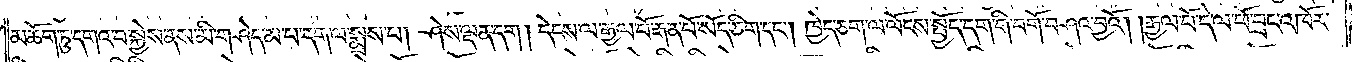མཆོག་ཏུ་དགའ་བ་སྐྱེས་ནས་མི་གཤེད་མ་པ་དག་ལ་སྨྲས་པ། ཤེས་ལྡན་དག །དེངས་ལ་རྒྱལ་པོ་རྒན་པོ་སོད་ཅིག་དང༌། ཁྱེད་ཅག་ལ་ལོངས་སྤྱོད་དག་གི་བགོ་བཤའ་བྱའོ། །རྒྱལ་པོ་དེ་ལ་ཕོ་བྲང་འཁོར་
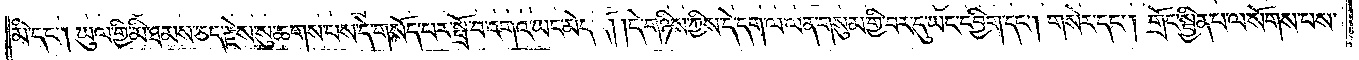མི་དང༌། ཡུལ་གྱི་མི་ཐམས་ཅད་རྗེས་སུ་ཆགས་པས་དེ་གསོད་པར་སྤྲོ་བ་འགའ་ཡང་མེད་དོ། །དེ་གཉིས་ཀྱིས་དེ་དག་ལ་ལན་གསུམ་གྱི་བར་དུ་ཡང་དབྱིག་དང༌། གསེར་དང༌། གྲོང་སྦྱིན་པ་ལ་སོགས་པས་
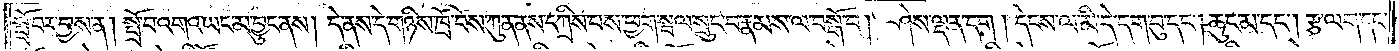སྤྲོ་བར་བྱས་ན། སྤྲོ་བ་འགའ་ཡང་མ་བྱུང་ནས། དེ་ནས་དེ་གཉིས་ཁྲོ་བོས་ཀུན་ནས་དཀྲིས་པས་ཕྱག་སྦལ་སྲུང་ང་རྣམས་ལ་བསྒོ་བ། ཤེས་ལྡན་དག །དེངས་ལ་མི་དེ་དག་བུ་དང༌། ཆུང་མ་དང༌། རྩ་ལག་དང་
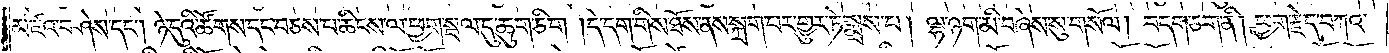མཛའ་བཤེས་དང༌། ཉེ་དུའི་ཚོགས་དང་བཅས་པ་ཆིངས་ལ་ཕྱག་སྦལ་དུ་ཆུག་ཅིག །དེ་དག་གིས་ཐོས་ནས་སྐྲག་པར་གྱུར་ཏེ་སྨྲས་པ། ལྷ་ཉག་མི་བཞེས་སུ་གསོལ། བདག་ཅག་ནི། ཕྱག་རྗེད་བཀའ་
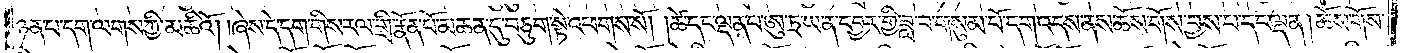ཉན་པ་དག་ལགས་ཀྱི་མཆིའོ། །ཞེས་དེ་དག་གིས་རལ་གྲི་རྣོན་པོ་མཆན་དུ་བཅུག་སྟེ་འཕགས་སོ། །ཚེ་དང་ལྡན་པ་ཨུ་ཏྲ་ཡ་ན་དབྱར་གྱི་ཟླ་བ་གསུམ་པོ་དག་འདས་ནས་ཆོས་གོས་བྱས་པ་དང་ལྡན། ཆོས་གོས་
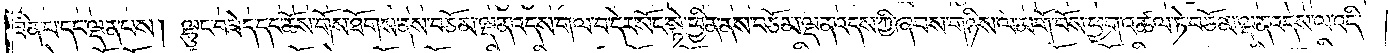ཟིན་པ་དང་ལྡན་པས། ལྷུང་བཟེད་དང་ཆོས་གོས་ཐོགས་ནས་བཅོམ་ལྡན་འདས་ག་ལ་བ་དེར་སོང་སྟེ་ཕྱིན་ནས་བཅོམ་ལྡན་འདས་ཀྱི་ཞབས་གཉིས་ལ་མགོ་བོས་ཕྱག་འཚལ་ཏེ་བཅོམ་ལྡན་འདས་ལ་འདི་
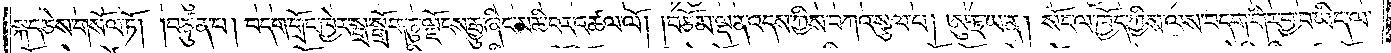སྐད་ཅེས་གསོལ་ཏོ། །བཙུན་པ། བདག་གྲོང་ཁྱེར་སྒྲ་སྒྲོག་ཏུ་ལྗོངས་རྒྱུ་ཞིང་མཆི་བར་འཚལ་ལོ། །བཅོམ་ལྡན་འདས་ཀྱིས་བཀའ་སྩལ་པ། ཨུ་ཏྲ་ཡ་ན། སོང་ལ་ཁྱོད་ཀྱིས་ལས་བདག་གིར་བྱ་བ་ཡིད་ལ་
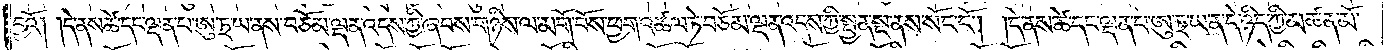བྱའོ། །དེ་ནས་ཚེ་དང་ལྡན་པ་ཨུ་ཏྲ་ཡ་ནས་བཅོམ་ལྡན་འདས་ཀྱི་ཞབས་གཉིས་ལ་མགོ་བོས་ཕྱག་འཚལ་ཏེ་བཅོམ་ལྡན་འདས་ཀྱི་སྤྱན་སྔ་ནས་སོང་ངོ༌། །དེ་ནས་ཚེ་དང་ལྡན་པ་ཨུ་ཏྲ་ཡ་ན་དེ་ཉིད་ཀྱི་མཚན་མོ་
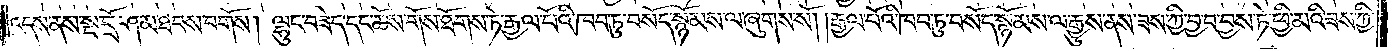འདས་ནས་སྔ་དྲོ་ཤམ་ཐབས་བགོས། ལྷུང་བཟེད་དང་ཆོས་གོས་ཐོགས་ཏེ་རྒྱལ་པོའི་ཁབ་ཏུ་བསོད་སྙོམས་ལ་ཞུགས་སོ། །རྒྱལ་པོའི་ཁབ་ཏུ་བསོད་སྙོམས་ལ་རྒྱུས་ནས་ཟས་ཀྱི་བྱ་བ་བྱས་ཏེ་ཕྱི་མའི་ཟས་ཀྱི་
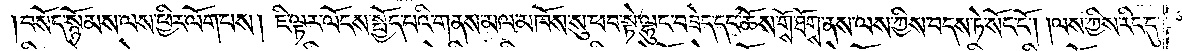།བསོད་སྙོམས་ལས་ཕྱིར་ལོག་པས། ཇི་ལྟར་ལོངས་སྤྱོད་པའི་གནས་མལ་མཁོས་སུ་ཕབ་སྟེ་ལྷུང་བཟེད་དང་ཆོས་གོས་ཐོགས་ནས་ལས་ཀྱིས་བདས་ཏེ་སོང་ངོ༌། །ལས་ཀྱིས་རིང་དུ་
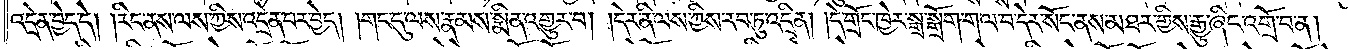འདྲེན་བྱེད་དེ། །རིང་ནས་ལས་ཀྱིས་འདྲེན་པར་བྱེད། །གང་དུ་ལས་རྣམས་སྨིན་འགྱུར་བ། །དེར་ནི་ལས་ཀྱིས་རབ་ཏུ་འདྲིན། །དེ་གྲོང་ཁྱེར་སྒྲ་སྒྲོག་ག་ལ་བ་དེར་སོང་ནས་མཐར་གྱིས་རྒྱུ་ཞིང་འགྲོ་བ་ན།
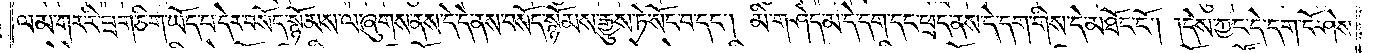ལམ་གར་རི་བྲག་ཅིག་ཡོད་པ་དེར་བསོད་སྙོམས་ལ་ཞུགས་ནས་དེ་དེ་ནས་བསོད་སྙོམས་རྒྱུས་ཏེ་སོང་བ་དང༌། མི་གཤེད་མ་དེ་དག་དང་ཕྲད་ནས་དེ་དག་གིས་དེ་མཐོང་ངོ༌། །དེས་ཀྱང་དེ་དག་ངོ་ཤེས་
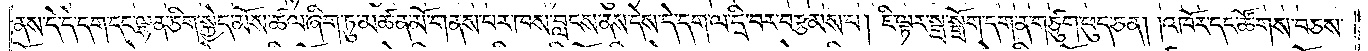ནས་དེ་དེ་དག་དང་ལྷན་ཅིག་སྐྱེད་མོས་ཚལ་ཞིག་ཏུ་མཚན་མོ་གནས་པར་ཁས་བླངས་ནས་དེས་དེ་དག་ལ་དྲི་བར་བརྩམས་པ། ཇི་ལྟར་སྒྲ་སྒྲོག་དག་ན་གཙུག་ཕུད་ཅན། །འཁོར་དང་ཚོགས་བཅས་
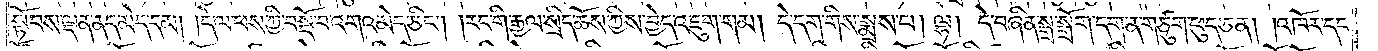སྟོབས་ལྡན་ནད་མེད་དམ། །དེ་ལ་ཕས་ཀྱི་བསྡོ་བ་འགའ་མེད་ཅིང༌། །རང་གི་རྒྱལ་སྲིད་ཆོས་ཀྱིས་བྱེད་འཇུག་གམ། དེ་དག་གིས་སྨྲས་པ། ལྷ། དེ་བཞིན་སྒྲ་སྒྲོག་དག་ན་གཙུག་ཕུད་ཅན། །འཁོར་དང་
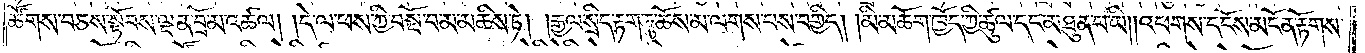ཚོགས་བཅས་སྟོབས་ལྡན་བྲོ་མ་འཚལ། །དེ་ལ་ཕས་ཀྱི་བསྔོ་བ་མ་མཆིས་ཏེ། །རྒྱལ་སྲིད་རྟག་ཏུ་ཆོས་མ་ལགས་པས་བགྱིད། །མི་མཆོད་ཁྱོད་ཀྱི་ཚུལ་དང་མཐུན་པ་ཡི། །འཕགས་དངོས་མངོན་རྟོགས་
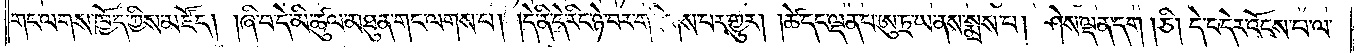གང་ལགས་ཁྱོད་ཀྱིས་མཛོད། །ཞི་བ་དེ་མི་ཚུལ་མཐུན་གང་ལགས་པ། །དེ་ནི་དེ་རིང་ཉེ་བར་གཟིགས་པར་གྱུར། །ཚེ་དང་ལྡན་པ་ཨུ་ཏྲ་ཡ་ནས་སྨྲས་པ། ཤེས་ལྡན་དག །ཅི། དེ་ང་དེར་འོངས་པ་ལ་
